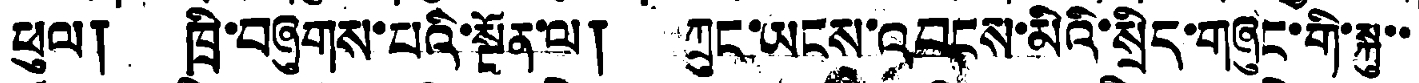ཕུལ། ཁྲི་བཞུགས་པའི་སྔོན་ལ། ཀྲུང་ཡངས་འབངས་མིའི་སྲིད་གཞུང་གི་སྐུ་་
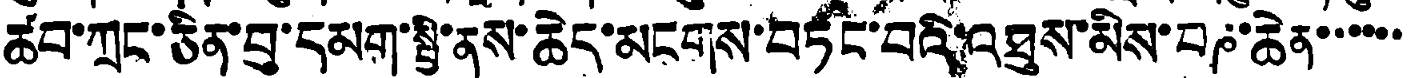ཚབ་ཀྲང་ཅིན་བུ་དམག་སྤྱི་ནས་ཆེད་མངགས་བཏང་བའི་འཐུས་མིས་བཎ་ཆེན་་་་་་
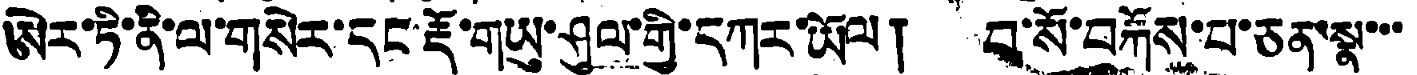ཨེར་ཏི་ནི་ལ་གསེར་དང་རྡོ་གཡུ་ཤུལ་གྱི་དཀར་ཡོལ། བ་སོ་བརྐོས་པ་ཅན་སྣ་་་
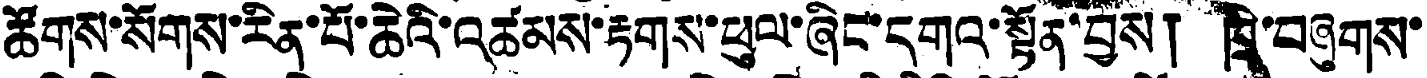ཚོགས་སོགས་རིན་པོ་ཆེའི་འཚམས་རྟགས་ཕུལ་ཞིང་དགའ་སྟོན་བྱས། ཁྲི་བཞུགས་
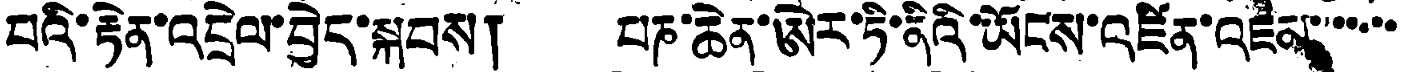པའི་རྟེན་འདྲེལ་བྱེད་སྐབས། པཎ་ཆེན་ཨེར་ཏི་ནིའི་ཡོངས་འཛིན་འཇམ་་་་་་
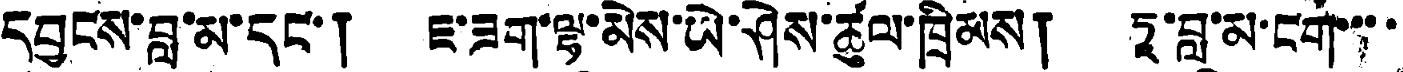དབྱངས་བླ་མ་དང་། ཇ་ཟག་ལྷ་མེས་ཡེ་ཤེས་ཚུལ་ཁྲིམས། ཏཱ་བླ་མ་ངག་་་་
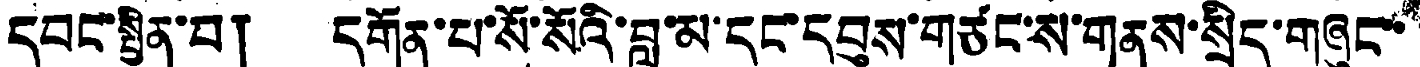དབང་སྦྱིན་བ། དགོན་པ་སོ་སོའི་བླ་མ་དང་དབུས་གཙང་ས་གནས་སྲིད་གཞུང་་
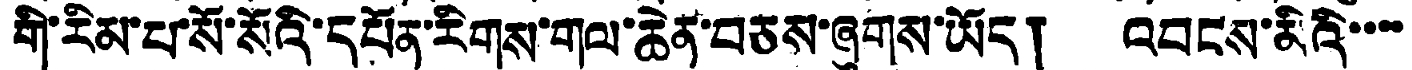གི་རིམ་པ་སོ་སོའི་དཔོན་རིགས་གལ་ཆེན་བཅས་ཞུགས་ཡོད། འབངས་མིའི་་་་
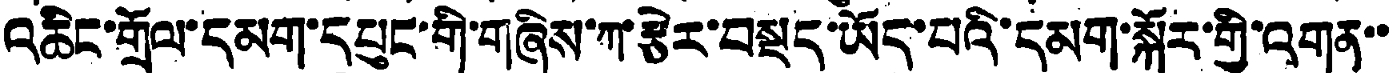འཆིང་གྲོལ་དམག་དཔུང་གི་གཞིས་ཀ་རྩེར་བསྡད་ཡོད་པའི་དམག་སྐོར་གྱི་འགན་་
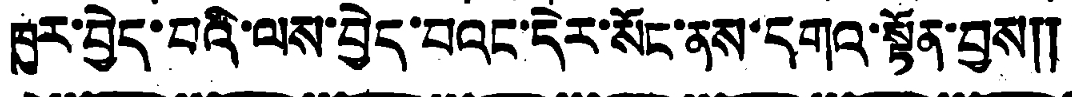ཁུར་བྱེད་པའི་ལས་བྱེད་པའང་དེར་སོང་ནས་དགའ་སྟོན་བྱས༎
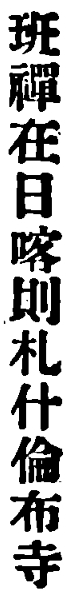班禪在日喀則札什倫布寺
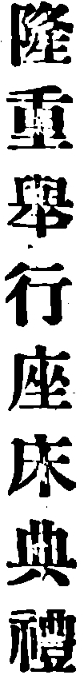隆重舉行座床典禮
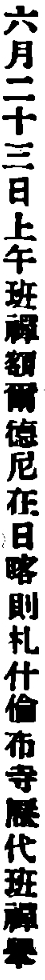六月二十三日上午班禪額爾德尼在日喀則札什倫布寺歷代班禪舉
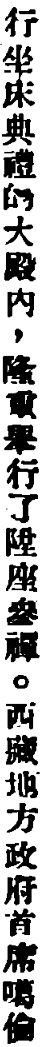行坐床典禮的大殿內，隆重舉行了陞座參禪。西藏地方政府首席噶倫
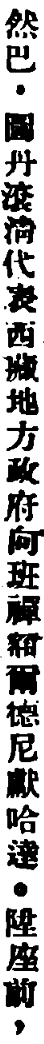然巴，圖丹滾清代表西藏地方政府向班禪額爾德尼獻哈達。陞座前，
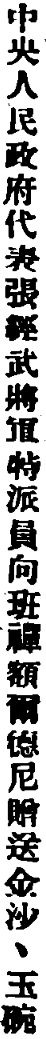中央人民政府代表張經武將軍特派員向班禪額爾德尼贈送金沙、玉碗
